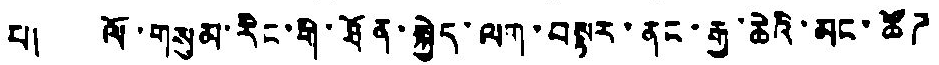པ། ལོ་གསུམ་རིང་གི་ཐོན་སྐྱེད་ལག་བསྟར་ནང་རྒྱ་ཆེའི་མང་ཚོཌ
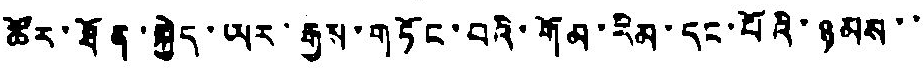ཚོར་ཐོན་སྐྱེད་ཡར་རྒྱས་གཏོང་བའི་གོམ་རིམ་དང་པོའི་ཉམས་་
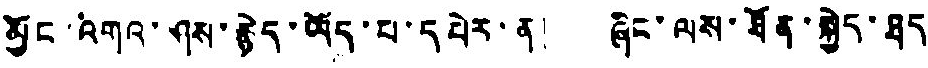མྱོང་འགའ་ཤས་རྙེད་ཡོད་པ་དཔེར་ན། ཞིང་ལས་ཐོན་སྐྱེད་ཐད
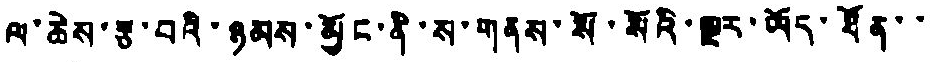ལ་ཆེས་རྩ་བའི་ཉམས་མྱོང་ནི་ས་གནས་སོ་སོའི་སྔར་ཡོད་ཐོན་་
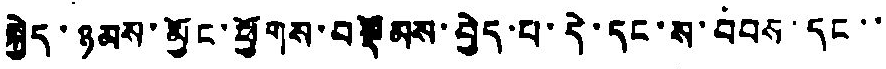སྐྱེད་ཉམས་མྱོང་ཕྱོགས་བསྡོམས་བྱེད་པ་དེ་དང་ས་བབས་དང་་
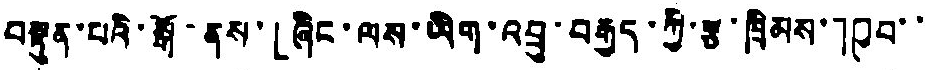བསྟུན་པའི་སྒོ་ནས་「ཞིང་ལས་ཡིག་འབྲུ་བརྒྱད་ཀྱི་རྩ་ཁྲིམས་」ཁྱབ་་
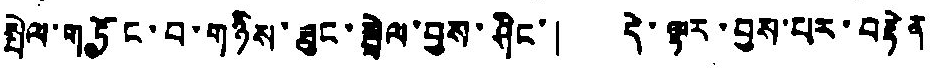སྤེལ་གཏོང་བ་གཉིས་ཟུང་སྦྲེལ་བྱས་ཤིང་། དེ་ལྟར་བྱས་པར་བརྟེན
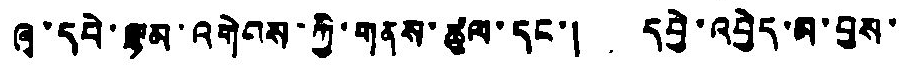ཞ་དབེ་ལྷམ་འགེབས་ཀྱི་གནས་ཚུལ་དང་། དབྱེ་འབྱེད་མ་བྱས་
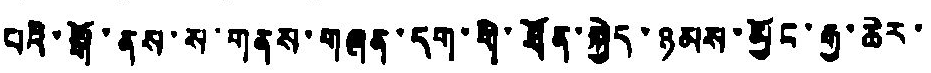པའི་སྒོ་ནས་ས་གནས་གཞན་དག་གི་ཐོན་སྐྱེད་ཉམས་མྱོང་རྒྱ་ཆེར་
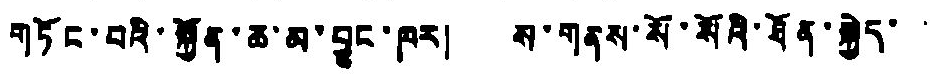གཏོང་བའི་སྐྱོན་ཆ་མ་བྱུང་ཁར། ས་གནས་སོ་སོའི་ཐོན་སྐྱེད་
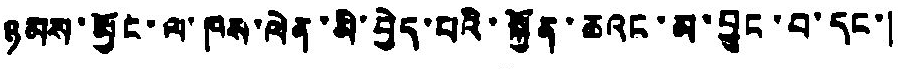ཉམས་མྱོང་ལ་ཁས་ལེན་མི་བྱེད་པའི་སྐྱོན་ཆའང་མ་བྱུང་བ་དང་།
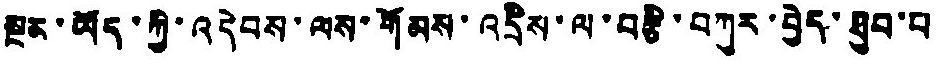སྔམ་ཡོད་ཀྱི་འདེབས་ལས་གོམས་འདྲིས་ལ་བརྩི་བཀུར་བྱེད་ཐུབ་པ
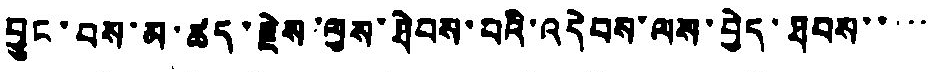བྱུང་བས་མ་ཚད་རྗེས་ལུས་ཐེབས་པའི་འདེབས་ལས་བྱེད་ཐབས་་་་་
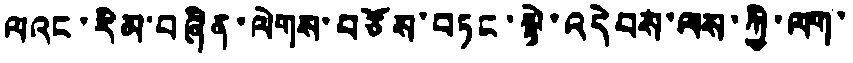ལའང་རིམ་བཞིན་ལེགས་བཅོས་བཏང་སྟེ་འདེབས་ལས་ཀྱི་ལག་
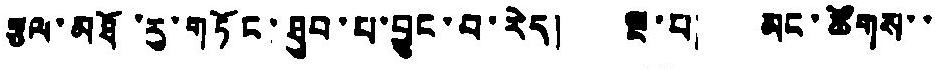རྩལ་མཐོ་རུ་གཏོང་ཐུབ་པ་བྱུང་བ་རེད། སྔ་པ། མང་ཚོགས་་
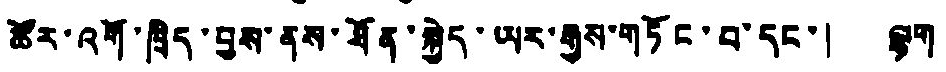ཚོར་འགོ་ཁྲིད་བྱས་ནས་ཐོན་སྐྱེད་ཡར་རྒྱས་གཏོང་བ་དང་། ལྷག
